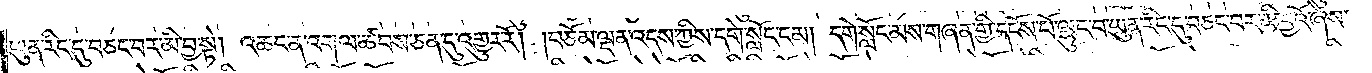ཡུན་རིང་དུ་བཅང་བར་མི་བྱ་སྟེ། འཆང་ན་འགལ་ཚབས་ཅན་དུ་འགྱུར་རོ། །བཅོམ་ལྡན་འདས་ཀྱིས་དགེ་སློང་ངམ། དགེ་སློང་མས་གཞན་གྱི་དངོས་པོ་ལྷུང་བ་ཡུན་རིང་དུ་བཅང་བར་མི་བྱའོ་ཞེས་
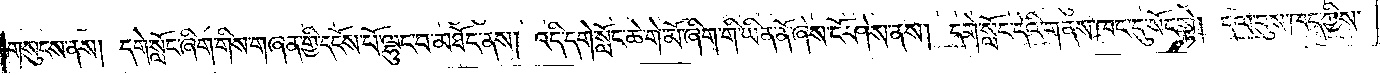གསུངས་ནས། དགེ་སློང་ཞིག་གིས་གཞན་གྱི་དངོས་པོ་ལྷུང་བ་མཐོང་ནས། འདི་དགེ་སློང་ཆེ་གེ་མོ་ཞིག་གི་ཡིན་ནོ་ཞེས་ངོ་ཤེས་ནས། དགེ་སློང་དེའི་གནས་ཁང་དུ་སོང་སྟེ། དལ་བུས་ཁད་ཀྱིས་
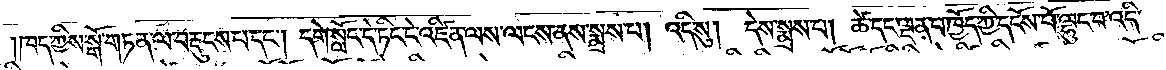ཁད་ཀྱིས་སྒོ་གཏན་ལ་བརྡུངས་པ་དང༌། དགེ་སློང་དེ་ཏིང་ངེ་འཛིན་ལས་ལངས་ནས་སྨྲས་པ། འདི་སུ། དེས་སྨྲས་པ། ཚེ་དང་ལྡན་པ་ཁྱོད་ཀྱི་དངོས་པོ་ལྷུང་བ་འདི
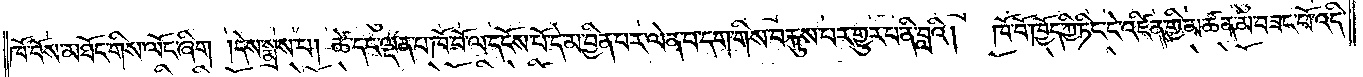ཁོ་བོས་མཐོང་གིས་ལོང་ཞིག །དེས་སྨྲས་པ། ཚེ་དང་ལྡན་པ་ཁོ་བོ་ལ་དངོས་པོ་དེ་མ་བྱིན་པར་ལེན་པ་དག་གིས་བརྐུས་པར་གྱུར་པ་ནི་བླའི།  ཁོ་བོ་ཁྱོད་ཀྱི་ཏིང་ངེ་འཛིན་གྱི་མཚན་མ་བཟང་པོ་འདི་
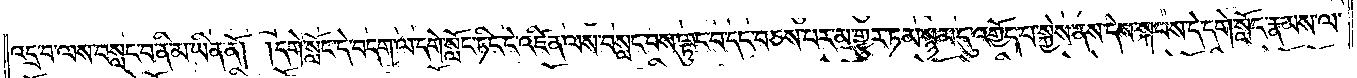འདྲ་བ་ལས་བསླང་བ་ནི་མ་ཡིན་ནོ། །དགེ་སློང་དེ་བདག་ལ་དགེ་སློང་ཏིང་ངེ་འཛིན་ལས་བསླང་བས་ལྟུང་བ་དང་བཅས་པར་མ་གྱུར་ཏམ་སྙམ་དུ་འགྱོད་པ་སྐྱེས་ནས་དེས་སྐབས་དེ་དགེ་སློང་རྣམས་ལ་
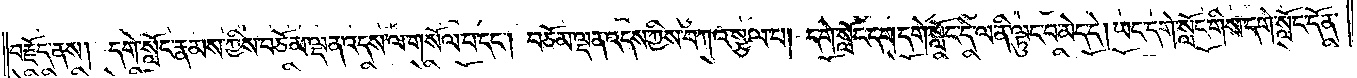བརྗོད་ནས། དགེ་སློང་རྣམས་ཀྱིས་བཅོམ་ལྡན་འདས་ལ་གསོལ་བ་དང༌། བཅོམ་ལྡན་འདས་ཀྱིས་བཀའ་སྩལ་པ། དགེ་སློང་དག་དགེ་སློང་དེ་ལ་ནི་ལྟུང་བ་མེད་དེ། ཡང་དགེ་སློང་གིས་དགེ་སློང་དོན་
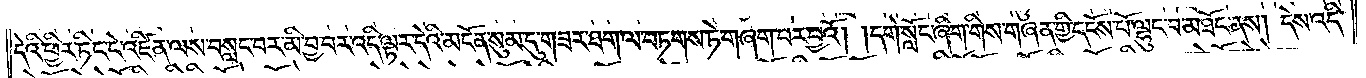དེའི་ཕྱིར་ཏིང་ངེ་འཛིན་ལས་བསླང་བར་མི་བྱ་བར་འདི་ལྟར་དེའི་མངོན་སུམ་དུ་གཟར་ཐག་ལ་བཏགས་ཏེ་གཞག་པར་བྱའོ། །དགེ་སློང་ཞིག་གིས་གཞན་གྱི་དངོས་པོ་ལྷུང་བ་མཐོང་ནས། དེས་འདི་
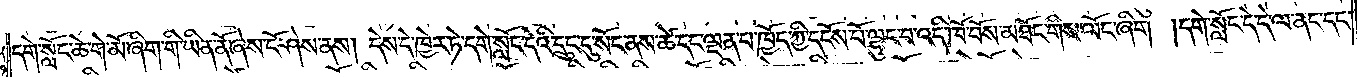དགེ་སློང་ཆེ་གེ་མོ་ཞིག་གི་ཡིན་ནོ་ཞེས་ངོ་ཤེས་ནས། དེས་དེ་ཁྱེར་ཏེ་དགེ་སློང་དེའི་དྲུང་དུ་སོང་ནས་ཚེ་དང་ལྡན་པ་ཁྱོད་ཀྱི་དངོས་པོ་ལྷུང་བ་འདི་ཁོ་བོས་མཐོང་གིས་ལོང་ཞིག །དགེ་སློང་དེ་དེ་ལ་ནང་དང་
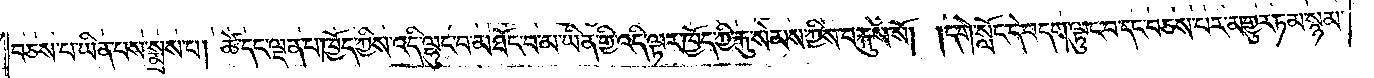བཅས་པ་ཡིན་པས་སྨྲས་པ། ཚེ་དང་ལྡན་པ་ཁྱོད་ཀྱིས་འདི་ལྷུང་བ་མཐོང་བ་མ་ཡིན་གྱི་འདི་ལྟར་ཁྱོད་ཀྱི་རྐུ་སེམས་ཀྱིས་བརྐུས་སོ། །དགེ་སློང་དེ་བདག་ལྟུང་བ་དང་བཅས་པར་མ་གྱུར་ཏམ་སྙམ་
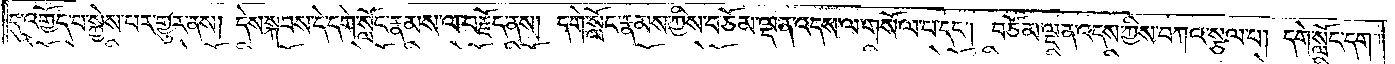དུ་འགྱོད་པ་སྐྱེས་པར་གྱུར་ནས། དེས་སྐབས་དེ་དགེ་སློང་རྣམས་ལ་བརྗོད་ནས། དགེ་སློང་རྣམས་ཀྱིས་བཅོམ་ལྡན་འདས་ལ་གསོལ་པ་དང༌། བཅོམ་ལྡན་འདས་ཀྱིས་བཀའ་སྩལ་པ། དགེ་སློང་དག་
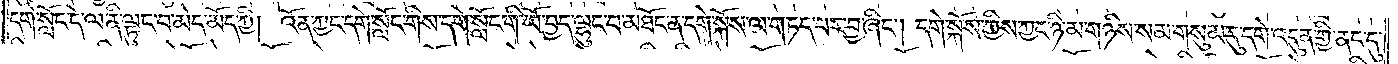དགེ་སློང་དེ་ལ་ནི་ལྟུང་བ་མེད་མོད་ཀྱི། འོན་ཀྱང་དགེ་སློང་གིས་དགེ་སློང་གི་ཡོ་བྱད་ལྷུང་བ་མཐོང་ན་དགེ་སྐོས་ལ་གཏད་པར་བྱ་ཞིང༌། དགེ་སྐོས་ཀྱིས་ཀྱང་ཉི་མ་གཉིས་སམ་གསུམ་དུ་དགེ་འདུན་གྱི་ནང་དུ་
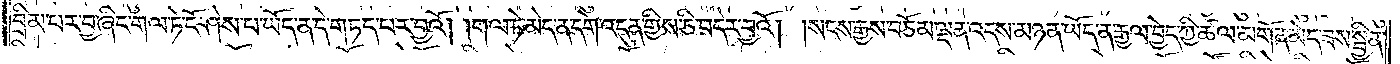བྲིམ་པར་བྱ་ཞིང་གལ་ཏེ་ངོ་ཤེས་པ་ཡོད་ན་དེ་གཏད་པར་བྱའོ། །གལ་ཏེ་མེད་ན་དགེ་འདུན་གྱིས་ཅི་བདེར་བྱའོ། །སངས་རྒྱས་བཅོམ་ལྡན་འདས་མཉན་ཡོད་ན་རྒྱལ་བྱེད་ཀྱི་ཚལ་མགོན་མེད་ཟས་སྦྱིན་
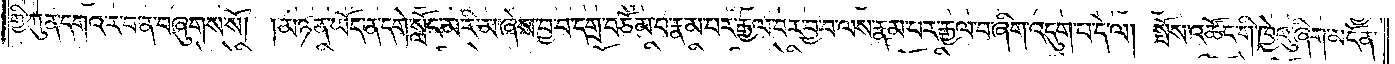གྱི་ཀུན་དགའ་ར་བ་ན་བཞུགས་སོ། །མཉན་ཡོད་ན་དགེ་སློང་མ་རི་མ་ཞེས་བྱ་བ་དགྲ་བཅོམ་པ་རྣམ་པར་རྒྱལ་བར་བྱ་བ་ལས་རྣམ་པར་རྒྱལ་བ་ཞིག་འདུག་པ་དེ་ལ། སྤོས་འཚོང་གི་ཁྱེའུ་ཞིག་མངོན་
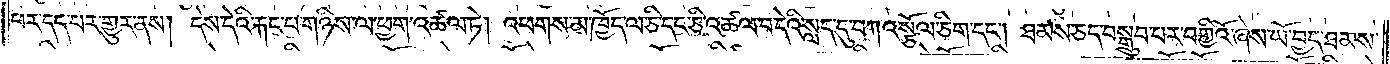པར་དད་པར་གྱུར་ནས། དེས་དེའི་རྐང་པ་གཉིས་ལ་ཕྱག་འཚལ་ཏེ། འཕགས་མ་ཁྱོད་ལ་ཅི་དང་ཅི་འཚལ་བ་དེའི་སླད་དུ་བཀའ་སྩོལ་ཅིག་དང༌། ཐམས་ཅད་བསྒྲུབ་པར་བགྱིའོ་ཞེས་ཡོ་བྱད་ཐམས་
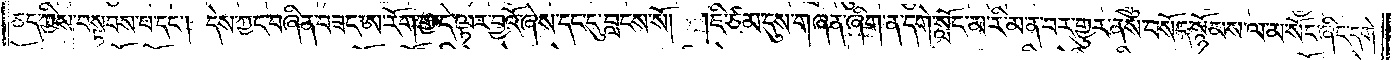ཅད་ཀྱིས་བསྟབས་པ་དང༌། དེས་ཀྱང་བཞིན་བཟང་ཨ་རོག་གྱ་དེ་ལྟར་བྱའོ་ཞེས་དང་དུ་བླངས་སོ། །ཇི་ཙམ་དུས་གཞན་ཞིག་ན་དགེ་སློང་མ་རི་མ་ན་བར་གྱུར་ནས་བསོད་སྙོམས་ལ་མ་སོང་ཞིང་དགེ་
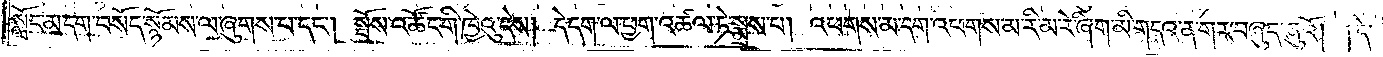སློང་མ་དག་བསོད་སྙོམས་ལ་ཞུགས་པ་དང༌། སྤོས་འཚོང་གི་ཁྱེའུ་དེས། དེ་དག་ལ་ཕྱག་འཚལ་ཏེ་སྨྲས་པ། འཕགས་མ་དག་འཕགས་མ་རི་མ་རེ་ཞིག་མི་གདའ་ན་གར་བཞུད་ཞུའོ།
